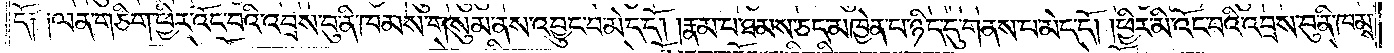དོ། །ལན་ཅིག་ཕྱིར་འོང་བའི་འབྲས་བུ་ནི་ཁམས་གསུམ་ནས་འབྱུང་བ་མེད་དོ། །རྣམ་པ་ཐམས་ཅད་མཁྱེན་པ་ཉིད་དུ་གནས་པ་མེད་དོ། །ཕྱིར་མི་འོང་བའི་འབྲས་བུ་ནི་ཁམས་
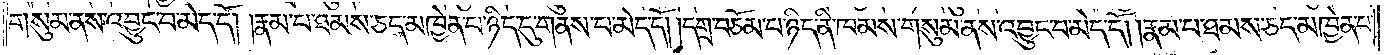གསུམ་ནས་འབྱུང་བ་མེད་དོ། །རྣམ་པ་ཐམས་ཅད་མཁྱེན་པ་ཉིད་དུ་གནས་པ་མེད་དོ། །དགྲ་བཅོམ་པ་ཉིད་ནི་ཁམས་གསུམ་ནས་འབྱུང་བ་མེད་དོ། །རྣམ་པ་ཐམས་ཅད་མཁྱེན་པ་
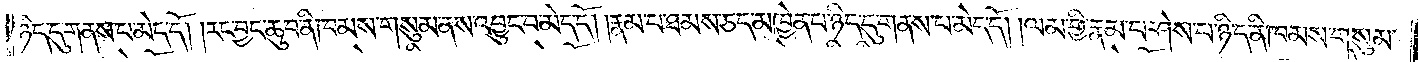ཉིད་དུ་གནས་པ་མེད་དོ། །རང་བྱང་ཆུབ་ནི་ཁམས་གསུམ་ནས་འབྱུང་བ་མེད་དོ། །རྣམ་པ་ཐམས་ཅད་མཁྱེན་པ་ཉིད་དུ་གནས་པ་མེད་དོ། །ལམ་གྱི་རྣམ་པ་ཤེས་པ་ཉིད་ནི་ཁམས་གསུམ་
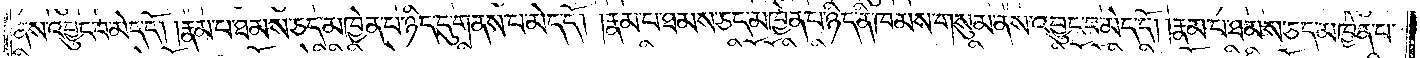ནས་འབྱུང་བ་མེད་དོ། །རྣམ་པ་ཐམས་ཅད་མཁྱེན་པ་ཉིད་དུ་གནས་པ་མེད་དོ། །རྣམ་པ་ཐམས་ཅད་མཁྱེན་པ་ཉིད་ནི་ཁམས་གསུམ་ནས་འབྱུང་བ་མེད་དོ། །རྣམ་པ་ཐམས་ཅད་མཁྱེན་པ་
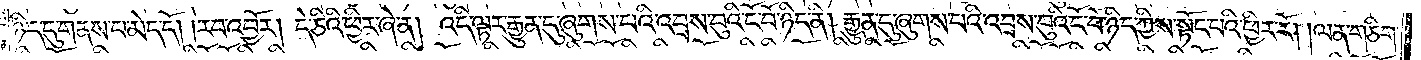ཉིད་དུ་གནས་པ་མེད་དོ། །རབ་འབྱོར། དེ་ཅིའི་ཕྱིར་ཞེ་ན། འདི་ལྟར་རྒྱུན་དུ་ཞུགས་པའི་འབྲས་བུའི་ངོ་བོ་ཉིད་ནི། རྒྱུན་དུ་ཞུགས་པའི་འབྲས་བུའི་ངོ་བོ་ཉིད་ཀྱིས་སྟོང་པའི་ཕྱིར་རོ། །ལན་ཅིག་ཕྱིར་
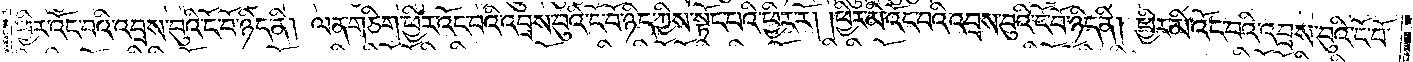ཕྱིར་འོང་བའི་འབྲས་བུའི་ངོ་བོ་ཉིད་ནི། ལན་ཅིག་ཕྱིར་འོང་བའི་འབྲས་བུའི་ངོ་བོ་ཉིད་ཀྱིས་སྟོང་པའི་ཕྱིར་རོ། །ཕྱིར་མི་འོང་བའི་འབྲས་བུའི་ངོ་བོ་ཉིད་ནི། ཕྱིར་མི་འོང་བའི་འབྲས་བུའི་ངོ་བོ་
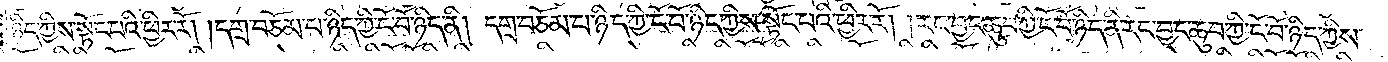ཉིད་ཀྱིས་སྟོང་པའི་ཕྱིར་རོ། །དགྲ་བཅོམ་པ་ཉིད་ཀྱི་ངོ་བོ་ཉིད་ནི། དགྲ་བཅོམ་པ་ཉིད་ཀྱི་ངོ་བོ་ཉིད་ཀྱིས་སྟོང་པའི་ཕྱིར་རོ། །རང་བྱང་ཆུབ་ཀྱི་ངོ་བོ་ཉིད་ནི་རང་བྱང་ཆུབ་ཀྱི་ངོ་བོ་ཉིད་ཀྱིས་
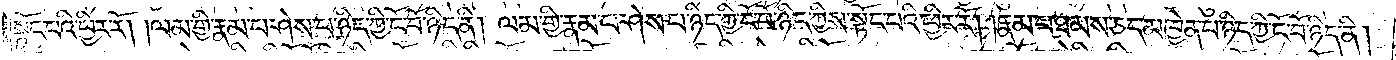སྟོང་པའི་ཕྱིར་རོ། །ལམ་གྱི་རྣམ་པ་ཤེས་པ་ཉིད་ཀྱི་ངོ་བོ་ཉིད་ནི། ལམ་གྱི་རྣམ་པ་ཤེས་པ་ཉིད་ཀྱི་ངོ་བོ་ཉིད་ཀྱིས་སྟོང་པའི་ཕྱིར་རོ། །རྣམ་པ་ཐམས་ཅད་མཁྱེན་པ་ཉིད་ཀྱི་ངོ་བོ་ཉིད་ནི།
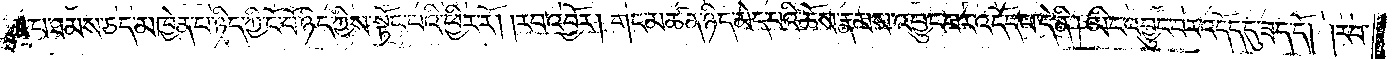རྣམ་པ་ཐམས་ཅད་མཁྱེན་པ་ཉིད་ཀྱི་ངོ་བོ་ཉིད་ཀྱིས་སྟོང་པའི་ཕྱིར་རོ། །རབ་འབྱོར། གང་མཚན་ཉིད་མེད་པའི་ཆོས་རྣམས་འབྱུང་བར་འདོད་པ་དེ་ནི། མིང་འབྱུང་བར་འདོད་དུ་ཟད་དོ། །རབ་
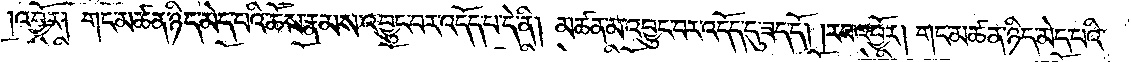འབྱོར། གང་མཚན་ཉིད་མེད་པའི་ཆོས་རྣམས་འབྱུང་བར་འདོད་པ་དེ་ནི། མཚན་མ་འབྱུང་བར་འདོད་དུ་ཟད་དོ། །རབ་འབྱོར། གང་མཚན་ཉིད་མེད་པའི་
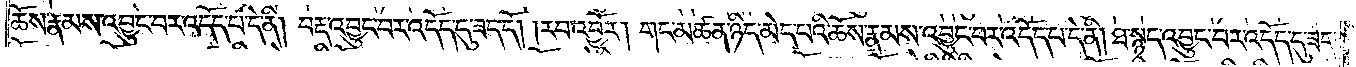ཆོས་རྣམས་འབྱུང་བར་འདོད་པ་དེ་ནི། བརྡ་འབྱུང་བར་འདོད་དུ་ཟད་དོ། །རབ་འབྱོར། གང་མཚན་ཉིད་མེད་པའི་ཆོས་རྣམས་འབྱུང་བར་འདོད་པ་དེ་ནི། ཐ་སྙད་འབྱུང་བར་འདོད་དུ་ཟད་
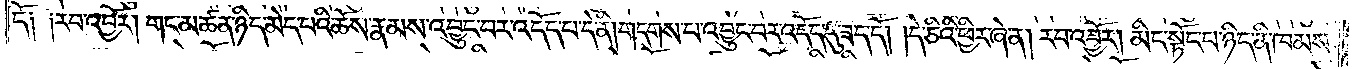དོ། །རབ་འབྱོར། གང་མཚན་ཉིད་མེད་པའི་ཆོས་རྣམས་འབྱུང་བར་འདོད་པ་དེ་ནི། གདགས་པ་འབྱུང་བར་འདོད་དུ་ཟད་དོ། །དེ་ཅིའི་ཕྱིར་ཞེ་ན། རབ་འབྱོར། མིང་སྟོང་པ་ཉིད་ནི་ཁམས་
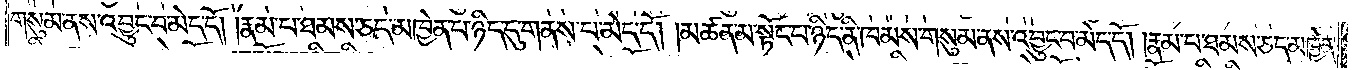གསུམ་ནས་འབྱུང་བ་མེད་དོ། །རྣམ་པ་ཐམས་ཅད་མཁྱེན་པ་ཉིད་དུ་གནས་པ་མེད་དོ། །མཚན་མ་སྟོང་པ་ཉིད་ནི་ཁམས་གསུམ་ནས་འབྱུང་བ་མེད་དོ། །རྣམ་པ་ཐམས་ཅད་མཁྱེན་
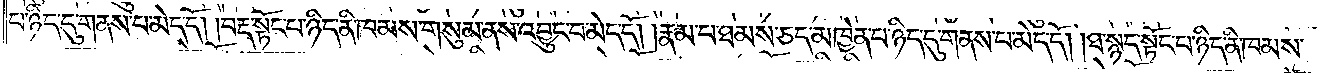པ་ཉིད་དུ་གནས་པ་མེད་དོ། །བརྡ་སྟོང་པ་ཉིད་ནི་ཁམས་གསུམ་ནས་འབྱུང་བ་མེད་དོ། །རྣམ་པ་ཐམས་ཅད་མཁྱེན་པ་ཉིད་དུ་གནས་པ་མེད་དོ། །ཐ་སྙད་སྟོང་པ་ཉིད་ནི་ཁམས་
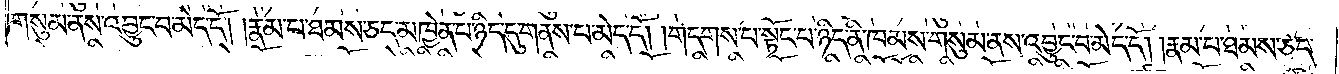གསུམ་ནས་འབྱུང་བ་མེད་དོ། །རྣམ་པ་ཐམས་ཅད་མཁྱེན་པ་ཉིད་དུ་གནས་པ་མེད་དོ། །གདགས་པ་སྟོང་པ་ཉིད་ནི་ཁམས་གསུམ་ནས་འབྱུང་བ་མེད་དོ། །རྣམ་པ་ཐམས་ཅད་
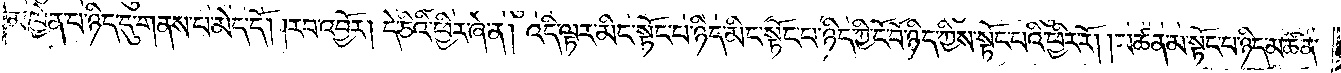མཁྱེན་པ་ཉིད་དུ་གནས་པ་མེད་དོ། །རབ་འབྱོར། དེ་ཅིའི་ཕྱིར་ཞེ་ན། འདི་ལྟར་མིང་སྟོང་པ་ཉིད་མིང་སྟོང་པ་ཉིད་ཀྱི་ངོ་བོ་ཉིད་ཀྱིས་སྟོང་པའི་ཕྱིར་རོ། །མཚན་མ་སྟོང་པ་ཉིད་མཚན་
